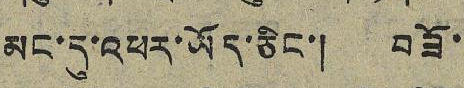མང་དུ་འཕར་ཡོད་ཅིང་། བཟོ་
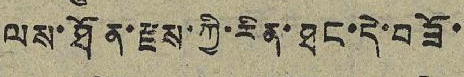ལས་ཐོན་རྫས་ཀྱི་རིན་ཐང་དེ་བཟོ་
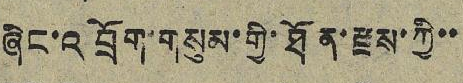ཞིང་འབྲོག་གསུམ་གྱི་ཐོན་རྫས་ཀྱི་་
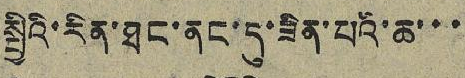སྤྱིའི་རིན་ཐང་ནང་དུ་ཟིན་པའི་ཆ་་་
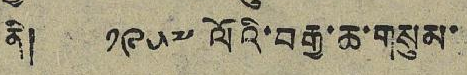ནི། ༡༩༥༧ ལོའི་བརྒྱ་ཆ་གསུམ་
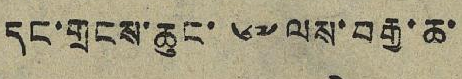དང་གྲངས་ཆུང་ ༦༧ ལས་བརྒྱ་ཆ་
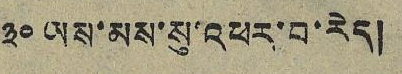༣༠ ཡས་མས་སུ་འཕར་བ་རེད།
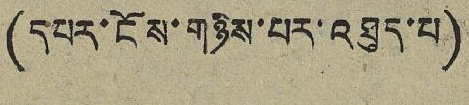(དཔར་ངོས་གཉིས་པར་འཐུད་པ)
